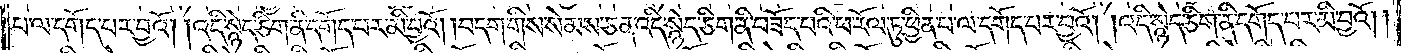པ་ལ་དགོད་པར་བྱའོ། །འདི་སྙེད་ཅིག་ནི་དགོད་པར་མི་བྱའོ། །བདག་གིས་སེམས་ཅན་འདི་སྙེད་ཅིག་ནི་བཟོད་པའི་ཕ་རོལ་ཏུ་ཕྱིན་པ་ལ་དགོད་པར་བྱའོ། །འདི་སྙེད་ཅིག་ནི་དགོད་པར་མི་བྱའོ། །
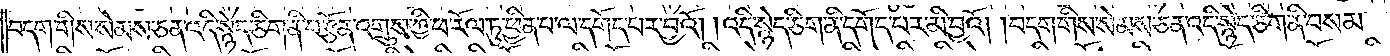བདག་གིས་སེམས་ཅན་འདི་སྙེད་ཅིག་ནི་བརྩོན་འགྲུས་ཀྱི་ཕ་རོལ་ཏུ་ཕྱིན་པ་ལ་དགོད་པར་བྱའོ། །འདི་སྙེད་ཅིག་ནི་དགོད་པར་མི་བྱའོ། །བདག་གིས་སེམས་ཅན་འདི་སྙེད་ཅིག་ནི་བསམ་
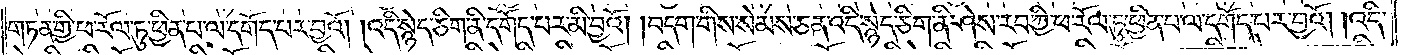གཏན་གྱི་ཕ་རོལ་ཏུ་ཕྱིན་པ་ལ་དགོད་པར་བྱའོ། །འདི་སྙེད་ཅིག་ནི་དགོད་པར་མི་བྱའོ། །བདག་གིས་སེམས་ཅན་འདི་སྙེད་ཅིག་ནི་ཤེས་རབ་ཀྱི་ཕ་རོལ་ཏུ་ཕྱིན་པ་ལ་དགོད་པར་བྱའོ། །འདི་
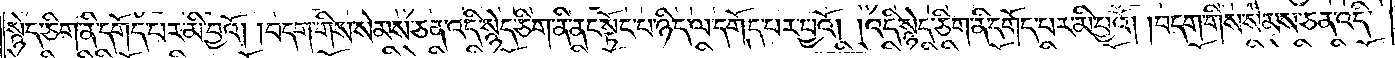སྙེད་ཅིག་ནི་དགོད་པར་མི་བྱའོ། །བདག་གིས་སེམས་ཅན་འདི་སྙེད་ཅིག་ནི་ནང་སྟོང་པ་ཉིད་ལ་དགོད་པར་བྱའོ། །འདི་སྙེད་ཅིག་ནི་དགོད་པར་མི་བྱའོ། །བདག་གིས་སེམས་ཅན་འདི་
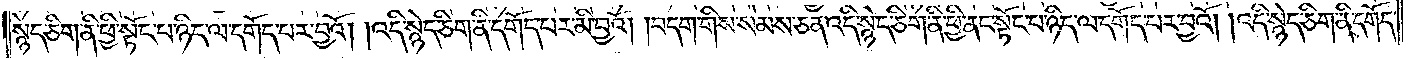སྙེད་ཅིག་ནི་ཕྱི་སྟོང་པ་ཉིད་ལ་དགོད་པར་བྱའོ། །འདི་སྙེད་ཅིག་ནི་དགོད་པར་མི་བྱའོ། །བདག་གིས་སེམས་ཅན་འདི་སྙེད་ཅིག་ནི་ཕྱི་ནང་སྟོང་པ་ཉིད་ལ་དགོད་པར་བྱའོ། །འདི་སྙེད་ཅིག་ནི་དགོད་
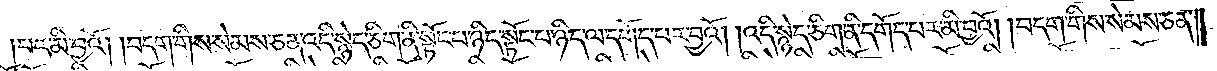པར་མི་བྱའོ། །བདག་གིས་སེམས་ཅན་འདི་སྙེད་ཅིག་ནི་སྟོང་པ་ཉིད་སྟོང་པ་ཉིད་ལ་དགོད་པར་བྱའོ། །འདི་སྙེད་ཅིག་ནི་དགོད་པར་མི་བྱའོ། །བདག་གིས་སེམས་ཅན་
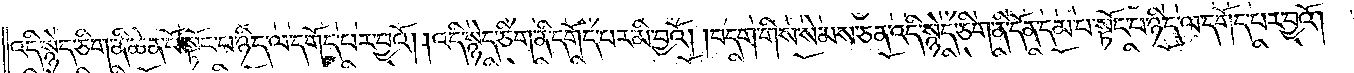འདི་སྙེད་ཅིག་ནི་ཆེན་པོ་སྟོང་པ་ཉིད་ལ་དགོད་པར་བྱའོ། །འདི་སྙེད་ཅིག་ནི་དགོད་པར་མི་བྱའོ། །བདག་གིས་སེམས་ཅན་འདི་སྙེད་ཅིག་ནི་དོན་དམ་པ་སྟོང་པ་ཉིད་ལ་དགོད་པར་བྱའོ་
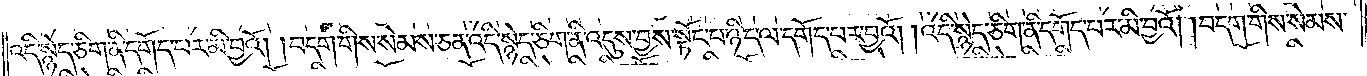འདི་སྙེད་ཅིག་ནི་དགོད་པར་མི་བྱའོ། །བདག་གིས་སེམས་ཅན་འདི་སྙེད་ཅིག་ནི་འདུས་བྱས་སྟོང་པ་ཉིད་ལ་དགོད་པར་བྱའོ། །འདི་སྙེད་ཅིག་ནི་དགོད་པར་མི་བྱའོ། །བདག་གིས་སེམས་
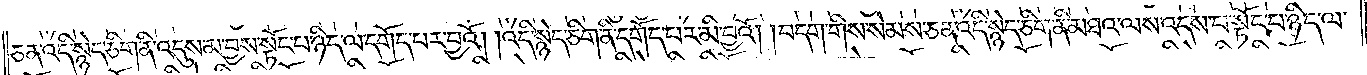ཅན་འདི་སྙེད་ཅིག་ནི་འདུས་མ་བྱས་སྟོང་པ་ཉིད་ལ་དགོད་པར་བྱའོ། །འདི་སྙེད་ཅིག་ནི་དགོད་པར་མི་བྱའོ། །བདག་གིས་སེམས་ཅན་འདི་སྙེད་ཅིག་ནི་མཐའ་ལས་འདས་པ་སྟོང་པ་ཉིད་ལ་
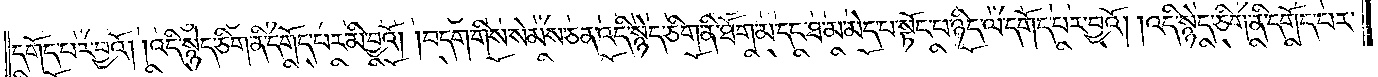དགོད་པར་བྱའོ། །འདི་སྙེད་ཅིག་ནི་དགོད་པར་མི་བྱའོ། །བདག་གིས་སེམས་ཅན་འདི་སྙེད་ཅིག་ནི་ཐོག་མ་དང་ཐ་མ་མེད་པ་སྟོང་པ་ཉིད་ལ་དགོད་པར་བྱའོ། །འདི་སྙེད་ཅིག་ནི་དགོད་པར་
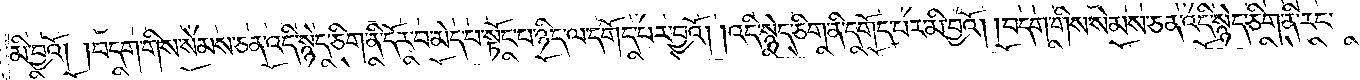མི་བྱའོ། །བདག་གིས་སེམས་ཅན་འདི་སྙེད་ཅིག་ནི་དོར་བ་མེད་པ་སྟོང་པ་ཉིད་ལ་དགོད་པར་བྱའོ། །འདི་སྙེད་ཅིག་ནི་དགོད་པར་མི་བྱའོ། །བདག་གིས་སེམས་ཅན་འདི་སྙེད་ཅིག་ནི་རང་
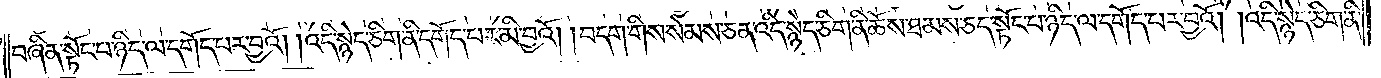བཞིན་སྟོང་པ་ཉིད་ལ་དགོད་པར་བྱའོ། །འདི་སྙེད་ཅིག་ནི་དགོད་པར་མི་བྱའོ། །བདག་གིས་སེམས་ཅན་འདི་སྙེད་ཅིག་ནི་ཆོས་ཐམས་ཅད་སྟོང་པ་ཉིད་ལ་དགོད་པར་བྱའོ། །འདི་སྙེད་ཅིག་ནི་
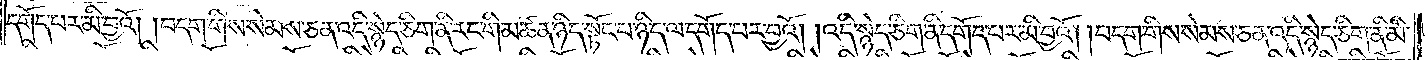དགོད་པར་མི་བྱའོ། །བདག་གིས་སེམས་ཅན་འདི་སྙེད་ཅིག་ནི་རང་གི་མཚན་ཉིད་སྟོང་པ་ཉིད་ལ་དགོད་པར་བྱའོ། །འདི་སྙེད་ཅིག་ནི་དགོད་པར་མི་བྱའོ། །བདག་གིས་སེམས་ཅན་འདི་སྙེད་ཅིག་ནི་མི་
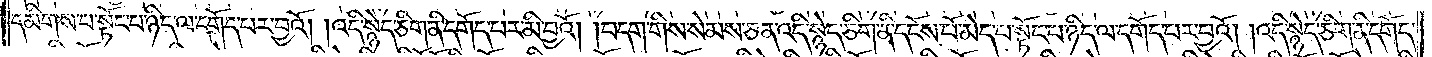དམིགས་པ་སྟོང་པ་ཉིད་ལ་དགོད་པར་བྱའོ། །འདི་སྙེད་ཅིག་ནི་དགོད་པར་མི་བྱའོ། །བདག་གིས་སེམས་ཅན་འདི་སྙེད་ཅིག་ནི་དངོ་ས་པོ་མེད་པ་སྟོང་པ་ཉིད་ལ་དགོད་པར་བྱའོ། །འདི་སྙེད་ཅིག་ནི་དགོད་
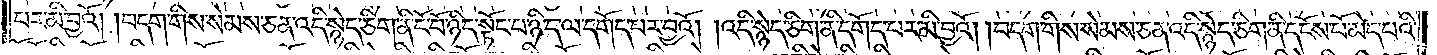པར་མི་བྱའོ། །བདག་གིས་སེམས་ཅན་འདི་སྙེད་ཅིག་ནི་ངོ་བོ་ཉིད་སྟོང་པ་ཉིད་ལ་དགོད་པར་བྱའོ། །འདི་སྙེད་ཅིག་ནི་དགོད་པར་མི་བྱའོ། །བདག་གིས་སེམས་ཅན་འདི་སྙེད་ཅིག་ནི་དངོས་པོ་མེད་པའི་
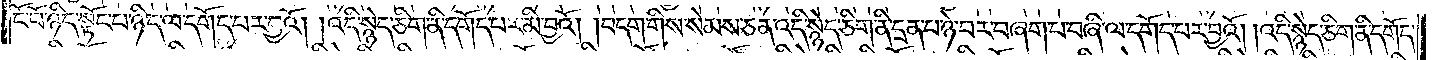ངོ་བོ་ཉིད་སྟོང་པ་ཉིད་ལ་དགོད་པར་བྱའོ། །འདི་སྙེད་ཅིག་ནི་དགོད་པར་མི་བྱའོ། །བདག་གིས་སེམས་ཅན་འདི་སྙེད་ཅིག་ནི་དྲན་པ་ཉེ་བར་བཞག་པ་བཞི་ལ་དགོད་པར་བྱའོ། །འདི་སྙེད་ཅིག་ནི་དགོད་
